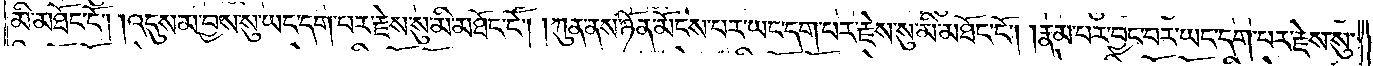མི་མཐོང་ངོ༌། །འདུས་མ་བྱས་སུ་ཡང་དག་པར་རྗེས་སུ་མི་མཐོང་ངོ༌། །ཀུན་ནས་ཉོན་མོངས་པར་ཡང་དག་པར་རྗེས་སུ་མི་མཐོང་ངོ༌། །རྣམ་པར་བྱང་བར་ཡང་དག་པར་རྗེས་སུ་
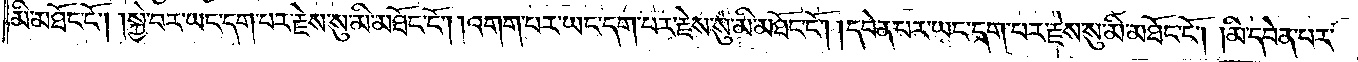མི་མཐོང་ངོ༌། །སྐྱེ་བར་ཡང་དག་པར་རྗེས་སུ་མི་མཐོང་ངོ༌། །འགག་པར་ཡང་དག་པར་རྗེས་སུ་མི་མཐོང་ངོ༌། །དབེན་པར་ཡང་དག་པར་རྗེས་སུ་མི་མཐོང་ངོ༌། །མི་དབེན་པར་
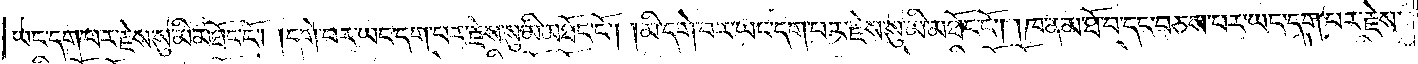ཡང་དག་པར་རྗེས་སུ་མི་མཐོང་ངོ༌། །དགེ་བར་ཡང་དག་པར་རྗེས་སུ་མི་མཐོང་ངོ༌། །མི་དགེ་བར་ཡང་དག་པར་རྗེས་སུ་མི་མཐོང་ངོ༌། །ཁ་ན་མ་ཐོ་བ་དང་བཅས་པར་ཡང་དག་པར་རྗེས་
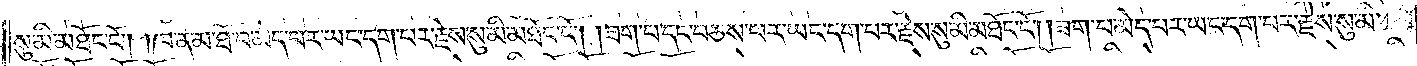སུ་མི་མཐོང་ངོ༌། །ཁ་ན་མ་ཐོ་བ་མེད་པར་ཡང་དག་པར་རྗེས་སུ་མི་མཐོང་ངོ༌། །ཟག་པ་དང་བཅས་པར་ཡང་དག་པར་རྗེས་སུ་མི་མཐོང་ངོ༌། །ཟག་པ་མེད་པར་ཡང་དག་པར་རྗེས་སུ་མི་
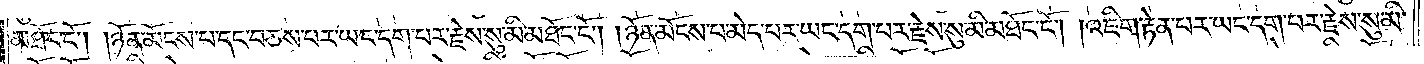མཐོང་ངོ༌། །ཉོན་མོངས་པ་དང་བཅས་པར་ཡང་དག་པར་རྗེས་སུ་མི་མཐོང་ངོ༌། །ཉོན་མོངས་པ་མེད་པར་ཡང་དག་པར་རྗེས་སུ་མི་མཐོང་ངོ༌། །འཇིག་རྟེན་པར་ཡང་དག་པར་རྗེས་སུ་མི་
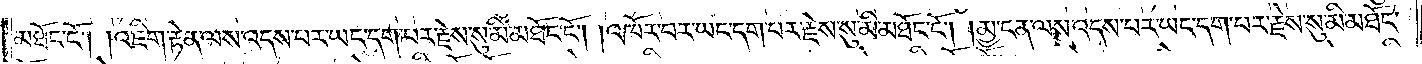མཐོང་ངོ༌། །འཇིག་རྟེན་ལས་འདས་པར་ཡང་དག་པར་རྗེས་སུ་མི་མཐོང་ངོ༌། །འཁོར་བར་ཡང་དག་པར་རྗེས་སུ་མི་མཐོང་ངོ༌། །མྱ་ངན་ལས་འདས་པར་ཡང་དག་པར་རྗེས་སུ་མི་མཐོང་
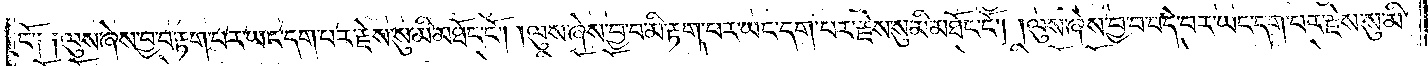ངོ༑ ༑ལུས་ཞེས་བྱ་བ་རྟག་པར་ཡང་དག་པར་རྗེས་སུ་མི་མཐོང་ངོ༌། །ལུས་ཞེས་བྱ་བ་མི་རྟག་པར་ཡང་དག་པར་རྗེས་སུ་མི་མཐོང་ངོ༌། །ལུས་ཞེས་བྱ་བ་བདེ་བར་ཡང་དག་པར་རྗེས་སུ་མི་
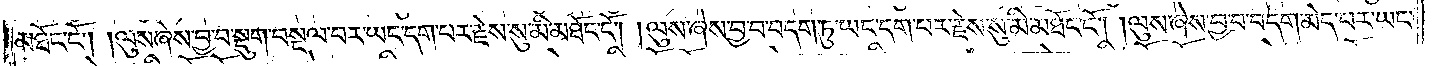མཐོང་ངོ༌། །ལུས་ཞེས་བྱ་བ་སྡུག་བསྔལ་བར་ཡང་དག་པར་རྗེས་སུ་མི་མཐོང་ངོ༌། །ལུས་ཞེས་བྱ་བ་བདག་ཏུ་ཡང་དག་པར་རྗེས་སུ་མི་མཐོང་ངོ༌། །ལུས་ཞེས་བྱ་བ་བདག་མེད་པར་ཡང་
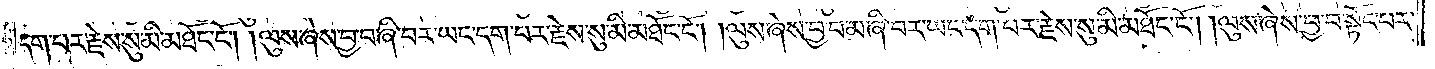དག་པར་རྗེས་སུ་མི་མཐོང་ངོ༌། །ལུས་ཞེས་བྱ་བ་ཞི་བར་ཡང་དག་པར་རྗེས་སུ་མི་མཐོང་ངོ༌། །ལུས་ཞེས་བྱ་བ་མ་ཞི་བར་ཡང་དག་པར་རྗེས་སུ་མི་མཐོང་ངོ༌། །ལུས་ཞེས་བྱ་བ་སྟོང་པར་
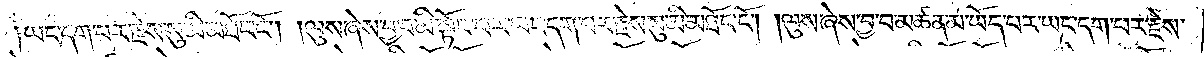ཡང་དག་པར་རྗེས་སུ་མི་མཐོང་ངོ༌། །ལུས་ཞེས་བྱ་བ་མི་སྟོང་པར་ཡང་དག་པར་རྗེས་སུ་མི་མཐོང་ངོ༌། །ལུས་ཞེས་བྱ་བ་མཚན་མ་ཡོད་པར་ཡང་དག་པར་རྗེས་
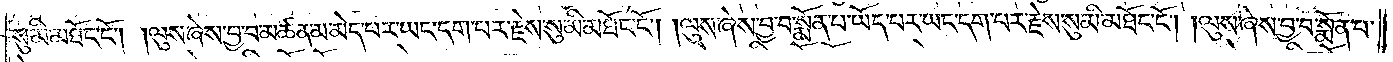སུ་མི་མཐོང་ངོ༌། །ལུས་ཞེས་བྱ་བ་མཚན་མ་མེད་པར་ཡང་དག་པར་རྗེས་སུ་མི་མཐོང་ངོ༌། །ལུས་ཞེས་བྱ་བ་སྨོན་པ་ཡོད་པར་ཡང་དག་པར་རྗེས་སུ་མི་མཐོང་ངོ༌། །ལུས་ཞེས་བྱ་བ་སྨོན་པ་
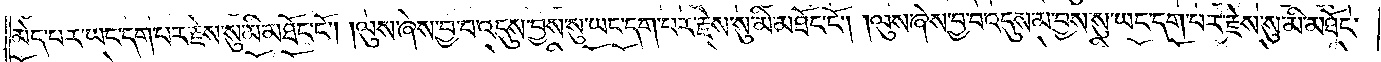མེད་པར་ཡང་དག་པར་རྗེས་སུ་མི་མཐོང་ངོ༌། །ལུས་ཞེས་བྱ་བ་འདུས་བྱས་སུ་ཡང་དག་པར་རྗེས་སུ་མི་མཐོང་ངོ༌། །ལུས་ཞེས་བྱ་བ་འདུས་མ་བྱས་སུ་ཡང་དག་པར་རྗེས་སུ་མི་མཐོང་
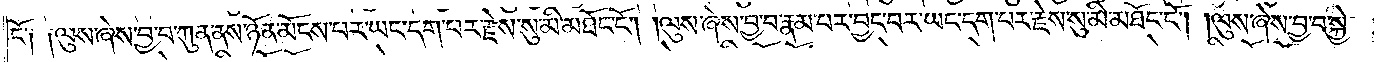ངོ༑ ༑ལུས་ཞེས་བྱ་བ་ཀུན་ནས་ཉོན་མོངས་པར་ཡང་དག་པར་རྗེས་སུ་མི་མཐོང་ངོ༌། །ལུས་ཞེས་བྱ་བ་རྣམ་པར་བྱང་བར་ཡང་དག་པར་རྗེས་སུ་མི་མཐོང་ངོ༌། །ལུས་ཞེས་བྱ་བ་སྐྱེ་
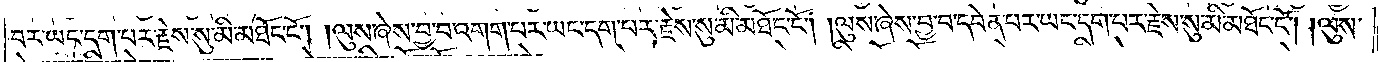བར་ཡང་དག་པར་རྗེས་སུ་མི་མཐོང་ངོ༌། །ལུས་ཞེས་བྱ་བ་འགག་པར་ཡང་དག་པར་རྗེས་སུ་མི་མཐོང་ངོ༌། །ལུས་ཞེས་བྱ་བ་དབེན་པར་ཡང་དག་པར་རྗེས་སུ་མི་མཐོང་ངོ༌། །ལུས་
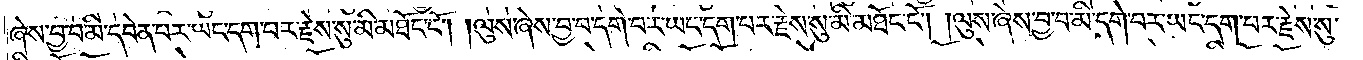ཞེས་བྱ་བ་མི་དབེན་པར་ཡང་དག་པར་རྗེས་སུ་མི་མཐོང་ངོ༌། །ལུས་ཞེས་བྱ་བ་དགེ་བར་ཡང་དག་པར་རྗེས་སུ་མི་མཐོང་ངོ༌། །ལུས་ཞེས་བྱ་བ་མི་དགེ་བར་ཡང་དག་པར་རྗེས་སུ་
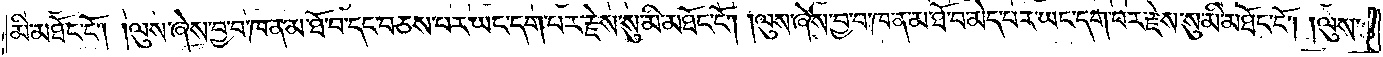མི་མཐོང་ངོ༌། །ལུས་ཞེས་བྱ་བ་ཁ་ན་མ་ཐོ་བ་དང་བཅས་པར་ཡང་དག་པར་རྗེས་སུ་མི་མཐོང་ངོ༌། །ལུས་ཞེས་བྱ་བ་ཁ་ན་མ་ཐོ་བ་མེད་པར་ཡང་དག་པར་རྗེས་སུ་མི་མཐོང་ངོ༌། །ལུས་
